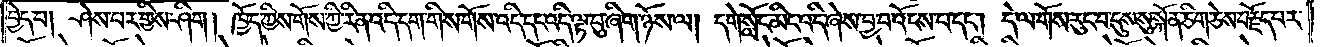བྱེད་པ། ཤེས་པར་གྱིས་ཤིག། ཁྱོད་ཀྱིས་གོས་ཀྱི་རིན་འདི་དག་གིས་གོས་འདི་དང་འདི་ལྟ་བུ་ཞིག་ཉོས་ལ། དགེ་སློང་མིང་འདི་ཞེས་བྱ་བ་འོངས་པ་དང༌། དེ་ལ་གོས་རུང་བ་དུས་སུ་སྐོན་ཅིག་ཅེས་བརྗོད་པར་
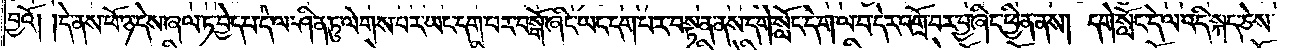བྱའོ། །དེ་ནས་ཕོ་ཉ་དེས་ཞལ་ཏ་བྱེད་པ་དེ་ལ་ཤིན་ཏུ་ལེགས་པར་ཡང་དག་པར་བསྒོ་ཞིང་ཡང་དག་པར་བསྟན་ནས་དགེ་སློང་དེ་ག་ལ་བ་དེར་འགྲོ་བར་བྱ་ཞིང་ཕྱིན་ནས། དགེ་སློང་དེ་ལ་འདི་སྐད་ཅེས་
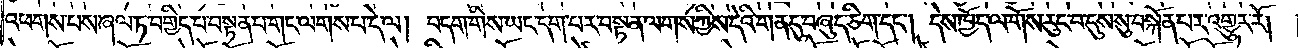འཕགས་པས་ཞལ་ཏ་བགྱིད་པ་བསྟན་པ་གང་ལགས་པ་དེ་ལ། བདག་གིས་ཡང་དག་པར་བསྟན་ལགས་ཀྱིས་དེའི་གན་དུ་བཞུད་ཅིག་དང༌། དེས་ཁྱོད་ལ་གོས་རུང་བ་དུས་སུ་བསྐོན་པར་འགྱུར་རོ། །
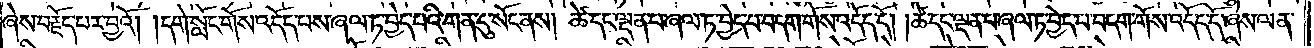ཞེས་བརྗོད་པར་བྱའོ། །དགེ་སློང་གོས་འདོད་པས་ཞལ་ཏ་བྱེད་པའི་གན་དུ་སོང་ནས། ཚེ་དང་ལྡན་པ་ཞལ་ཏ་བྱེད་པ་བདག་གོས་འདོད་དོ། །ཚེ་དང་ལྡན་པ་ཞལ་ཏ་བྱེད་པ་བདག་གོས་འདོད་དོ་ཞེས་ལན་
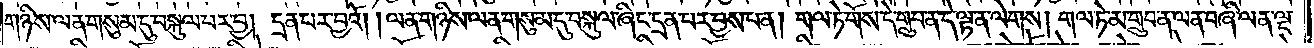གཉིས་ལན་གསུམ་དུ་བསྐུལ་བར་བྱ། དྲན་པར་བྱའོ། །ལན་གཉིས་ལན་གསུམ་དུ་བསྐུལ་ཞིང་དྲན་པར་བྱས་པ་ན། གལ་ཏེ་གོས་དེ་གྲུབ་ན་དེ་ལྟ་ན་ལེགས། གལ་ཏེ་མ་གྲུབ་ན་ལན་བཞི་ལན་ལྔ་
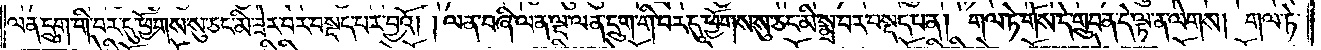ལན་དྲུག་གི་བར་དུ་ཕྱོགས་སུ་ཅང་མི་ཟེར་བར་བསྡད་པར་བྱའོ། །ལན་བཞི་ལན་ལྔ་ལན་དྲུག་གི་བར་དུ་ཕྱོགས་སུ་ཅང་མི་སྨྲ་བར་བསྡད་པ་ན། གལ་ཏེ་གོས་དེ་གྲུབ་ན་དེ་ལྟ་ན་ལེགས། གལ་ཏེ་
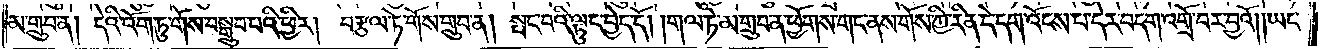མ་གྲུབ་ན། དེའི་འོག་ཏུ་གོས་བསྒྲུབ་པའི་ཕྱིར། བརྩལ་ཏེ་གོས་གྲུབ་ན། སྤང་བའི་ལྟུང་བྱེད་དོ། །གལ་ཏེ་མ་གྲུབ་ན་ཕྱོགས་གང་ནས་གོས་ཀྱི་རིན་དེ་དག་འོངས་པ་དེར་བདག་འགྲོ་བར་བྱའོ། །ཡང་
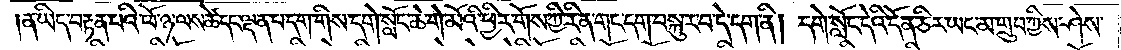།ན་ཡིད་བརྟན་པའི་ཕོ་ཉ་ལས་ཚེ་དང་ལྡན་པ་དག་གིས་དགེ་སློང་ཆེ་གེ་མོའི་ཕྱིར་གོས་ཀྱི་རིན་གང་དག་བསྐུར་བ་དེ་དག་ནི། དགེ་སློང་དེའི་དོན་ཅིར་ཡང་མ་གྲུབ་ཀྱིས་ཤེས་
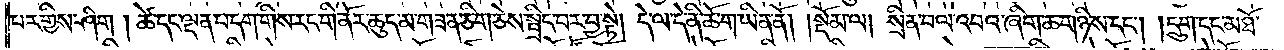པར་གྱིས་ཤིག །ཚེ་དང་ལྡན་པ་དག་གིས་རང་གི་ནོར་ཆུད་མ་གཟན་ཅིག་ཅེས་སྤྲིང་བར་བྱ་སྟེ། དེ་ལ་དེ་ནི་ཆོ་ག་ཡིན་ནོ།    །སྡོམ་ལ། སྲིན་བལ་འབའ་ཞིག་ཆ་གཉིས་དང༌། །དྲུག་དང་མཐོ་
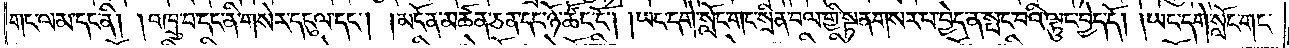གང་ལམ་དང་ནི། །འཁྲུ་བ་དང་ནི་གསེར་དངུལ་དང༌། །མངོན་མཚན་ཅན་དང་ཉོ་ཚོང་ངོ༌། །ཡང་དགེ་སློང་གང་སྲིན་བལ་གྱི་སྟན་གསར་པ་བྱེད་ན་སྤང་བའི་ལྟུང་བྱེད་དོ། །ཡང་དགེ་སློང་གང་
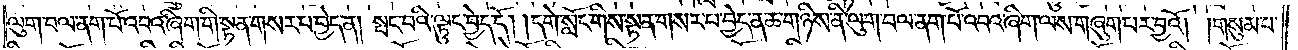ལུག་བལ་ནག་པོ་འབའ་ཞིག་གི་སྟན་གསར་པ་བྱེད་ན། སྤང་བའི་ལྟུང་བྱེད་དོ། །དགེ་སློང་གིས་སྟན་གསར་པ་བྱེད་ན་ཆ་གཉིས་ནི་ལུག་བལ་ནག་པོ་འབའ་ཞིག་ལས་གཞུག་པར་བྱའོ། །གསུམ་པ་
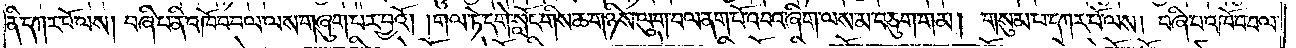ནི་དཀར་པོ་ལས། བཞི་པ་ནི་འཁོབ་བལ་ལས་གཞུག་པར་བྱའོ། །གལ་ཏེ་དགེ་སློང་གིས་ཆ་གཉིས་ལུག་བལ་ནག་པོ་འབའ་ཞིག་ལས་མ་བཅུག་གམ། གསུམ་པ་དཀར་པོ་ལས། བཞི་པ་འཁོབ་བལ་
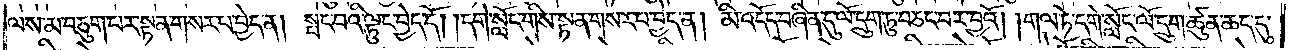ལས་མ་བཅུག་པར་སྟན་གསར་པ་བྱེད་ན། སྤང་བའི་ལྟུང་བྱེད་དོ། །དགེ་སློང་གིས་སྟན་གསར་པ་བྱེད་ན། མི་འདོད་བཞིན་དུ་ལོ་དྲུག་ཏུ་བཅང་བར་བྱའོ། །གལ་ཏེ་དགེ་སློང་ལོ་དྲུག་ཚུན་ཆད་དུ་
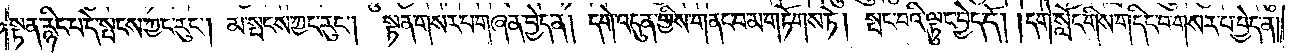སྟན་རྙིང་པ་དེ་སྤངས་ཀྱང་རུང༌། མ་སྤངས་ཀྱང་རུང༌། སྟན་གསར་པ་གཞན་བྱེད་ན། དགེ་འདུན་གྱིས་གནང་བ་མ་གཏོགས་ཏེ། སྤང་བའི་ལྟུང་བྱེད་དོ། །དགེ་སློང་གིས་གདིང་བ་གསར་པ་བྱེད་ན།
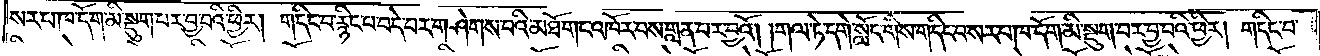སར་པ་ཁ་དོག་མི་སྡུག་པར་བྱ་བའི་ཕྱིར། གདིང་བ་རྙིང་པ་བདེ་བར་གཤེགས་པའི་མཐོ་གང་འཁོར་བས་གླན་པར་བྱའོ། །གལ་ཏེ་དགེ་སློང་གིས་གདིང་བ་སར་བ་ཁ་དོག་མི་སྡུག་བར་བྱ་བའི་ཕྱིར། གདིང་བ་
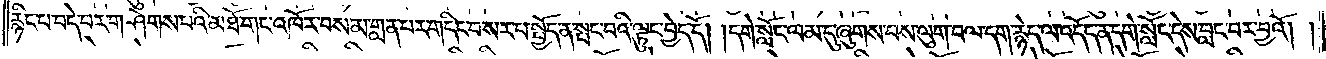རྙིང་པ་བདེ་བར་གཤེགས་པའི་མཐོ་གང་འཁོར་བས་མ་གླན་པར་གདིང་བ་སར་པ་སྤྱོད་ན་སྤང་བའི་ལྟུང་བྱེད་དོ། །དགེ་སློང་ལམ་དུ་ཞུགས་པས་ལུག་བལ་དག་རྙེད་ལ་འདོད་ན་དགེ་སློང་དེས་བླང་བར་བྱའོ། །
